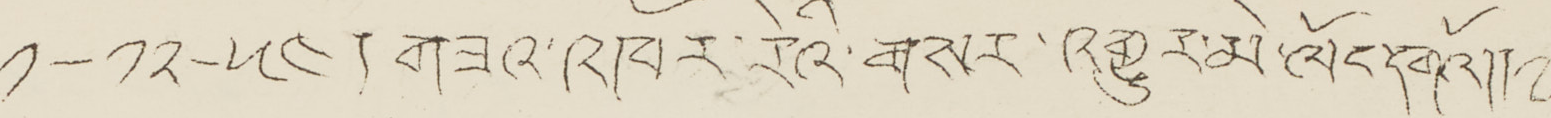༡-༡༢-༥༤། གཟའ་འཁོར་རེའི་གསར་འགྱུར་མེ་ལོང་དགེའོ།།༧
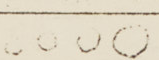༠༠༠
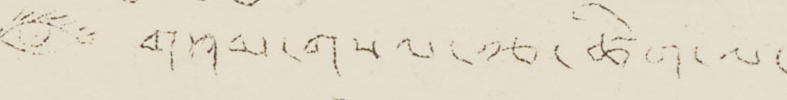༗ གཤམ་གསལ་རྩ་ཚིག་ལ་
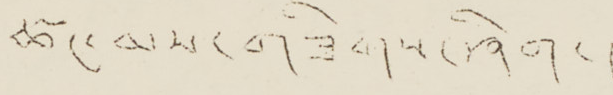ཚང་མས་གཟིགས་ཤིག་།
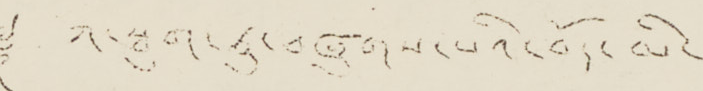༈ ཀ་སྤུག་ཏུ་བཞུགས་པའི་བོད་མི་
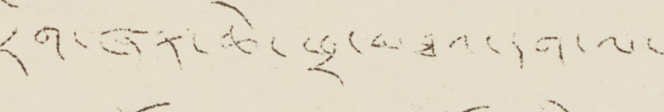དྲག་ཞན་ཆེ་ཕྲ་མཐའ་དག་ལ་
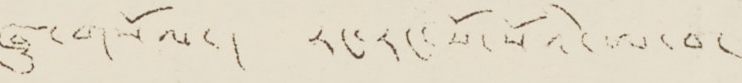ཞུ་གསོལ།རང་རང་སོ་སོའི་བ་
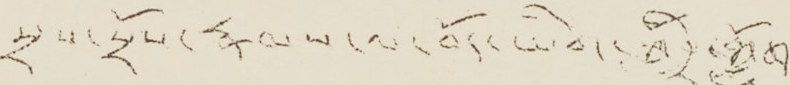སྲས་སྲོས་རྣམས་ལ་བོད་ཡིག་འདྲི་ཀློག་
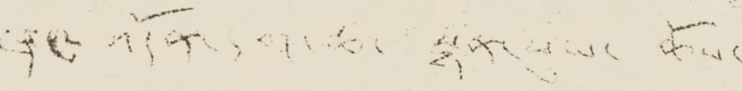ཞང་འདོན་དག་ཆ་སྙན་ཕུལ་ཆོས་
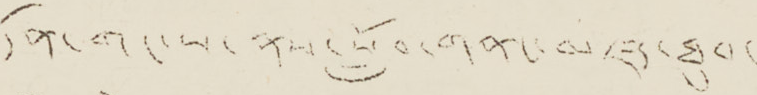དོན་གང་ས་ནས་སློབ་གནང་མཛད་ཐུབ་
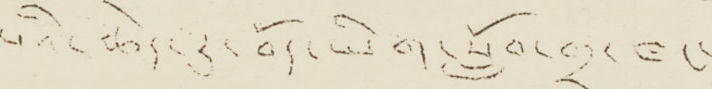པའི་ཆེད་དུ་བོད་ཡིག་སློབ་ཁང་
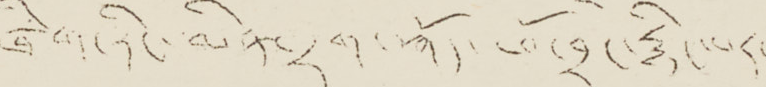ཞིག་རིང་མིན་དྲག་བཀོད་ཕོ་བྲང་རྙིང་པར་
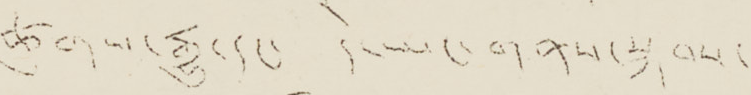ཚུགས་རྒྱ་དང་ དེ་ཡང་གནས་སྐབས་
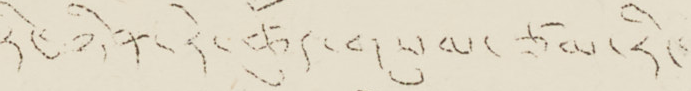རིང་ཉིན་རེ་ཚོུད་གསུམ་ཙམ་རིང་
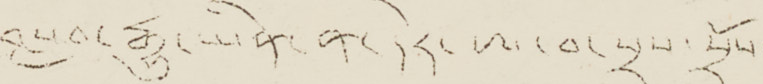བསླབ་རྒྱུ་ཡིན་ན་དེར་ཨ་བ་སྲས་སྲོས་
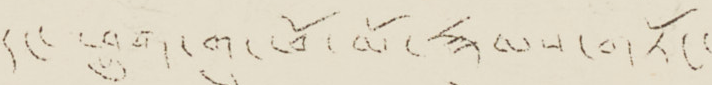དང་ཕྲུག་གུང་ཕོ་མོ་རྣམས་གཏོང་
